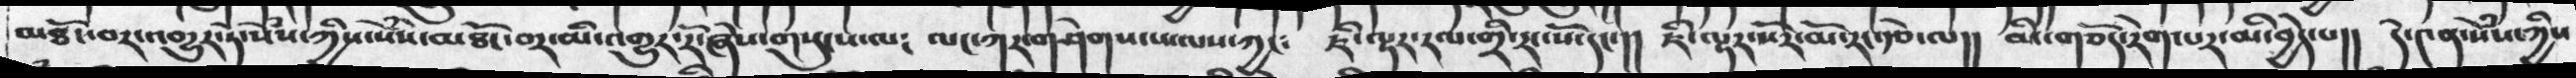མཐོང་བར་འགྱུར་ཏེ་སེཾས་ཀྱིས་སེཾས་མཐོང་བར་མི་འགྱུར་རོ་ཞེས་གསུངས་ལ༴ ལང་ཀར་གཤེགས་པ་ལས་ཀྱང༴ ཇི་ལྟར་རལ་གྲི་རང་སོ་དང་།། ཇི་ལྟར་སོར་མོ་རང་རྩེ་ལ།། མི་གཅོད་རེག་པར་མི་བྱེད་པ།། དེ་༤ན་སེཾས་ཀྱིས
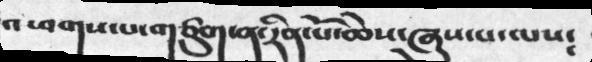འཕགས་པ་གཙུག་ན་རིན་པོ་ཆེས་ཞུས་པ་ལས༴
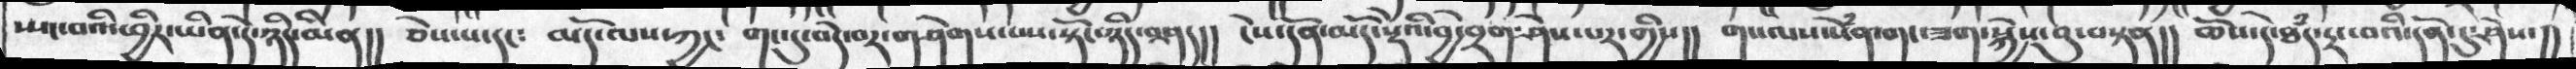སྤང་བའི་ཕྱིར་ཡིན་དེ་ཉིད་མིན།། ཅེས་པ་དང༴ མདོ་ལས་ཀྱང༴ གང་དུ་བདེ་བར་གཤེགས་པས་སྟོང་ཉིད་བཤད།། ངེས་དོན་མདོ་སྡེའི་བྱེ་བྲག་ཤེས་པར་གྱིས།། གང་ལས་སེཾན་གང་ཟག་སྐྱེས་བུ་བསྟན།། ཆོས་དེ་ཐཾད་དྲང་བའི་དོན་དུ་ཤེས་།།
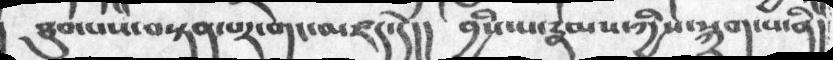ཐུབ་པས་བསྟན་པར་གང་མཛད་དེ།།  བྱིས་པ་རྣམས་ཀྱིས་སྐྲག་པ་ནི།
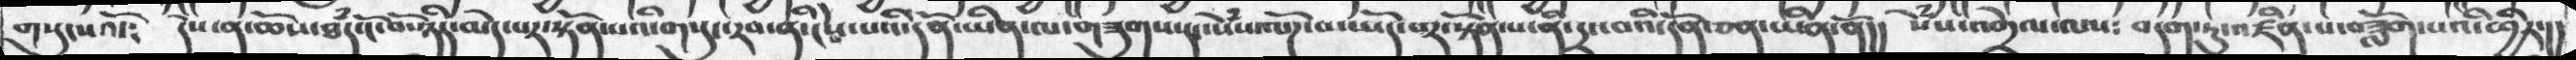གསུངསའོང༴  དེས་ན་ཆོས་ཐཾད་ངོ་བོ་ཉིད་མེད་པར་སྟོན་པའི་གསུང་རབ་ནི་ངེས་པའི་དོན་ཡིན་ལ་གཟུགས་དང་སེཾས་ལོཌ་པ་ཡོད་པར་སྟོན་པ་ནི་དྲང་བའི་དོན་ཅན་ཡིན་ནོ།།  སེཾས་འགྲེལ་ལས༴  བདག་ཏུ་འཛིན་བཟློག་པའི་ཕྱིར་།།
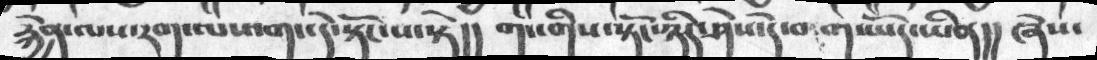རྐྱེན་ལས་རག་ལས་གང་དེ་སྟོང་པ་སྟེ།།  གང་གིས་སྟོང་ཉིད་ཤེས་དེ་བག་ཡོད་ཡིན།། ཞེས་
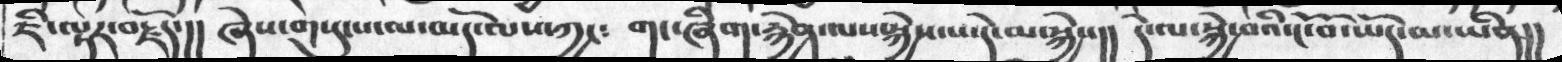ཇི་ལྟར་བརྗོད་།། ཞེས་གསུངས་ལ་མདོ་ལས་ཀྱང༴ གང་ཞིག་རྐྱེན་ལས་སྐྱེས་པ་དེ་མ་སྐྱེས།། དེ་ལ་སྐྱེ་བའི་ངོ་བོ་ཡོད་མ་ཡིན།།
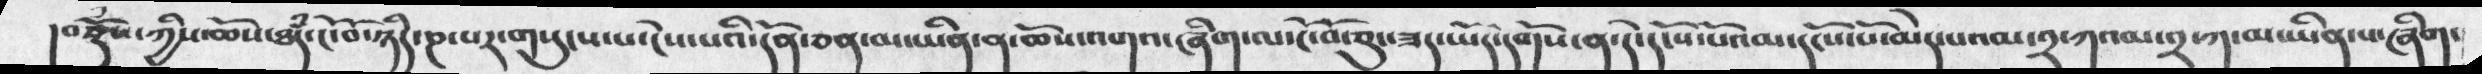།བཅྡོཾས་ཀྱིས་ཆོས་ཐཾད་ངོ་བོ་ཉིད་ཎ་པར་གསུངས་པ་ངེས་པའི་དོན་ཅན་མ་ཡིན་ན་ཆོས་འགའ་ཞིག་ལ་ངོ་བོ་ཅུང་ཟད་ཡོད་དགོས་ན་དེ་དངོས་པོའམ་དངོས་མེད་པའམ་༢་ཀ་མ་ཡིན་པ་ཞིག་
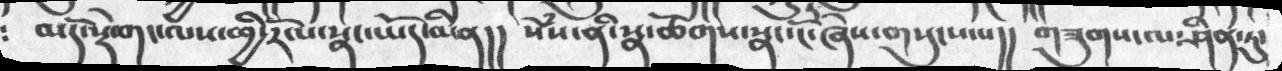མདོ་སྡེ་གང་ལས་ཕྱི་རོལ་སྣང་ཡོད་མིན།། སེཾས་ནི་སྣ་ཚོགས་སྣང་ངོ་ཞེས་གསུངས་པ།།  གཟུགས་ལ་ཤིན་ཏུ་
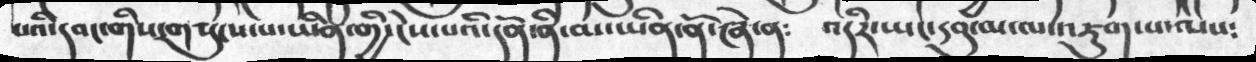པའི་དབང་གིས་གསུངས་པ་ཡིན་གྱི་ངེས་པའི་དོན་ནི་མ་ཡིན་ནོ་ཞེ་ན༴ འདིར་ཡང་དབུ་མ་ལ་འཇུག་པ་ལས༴
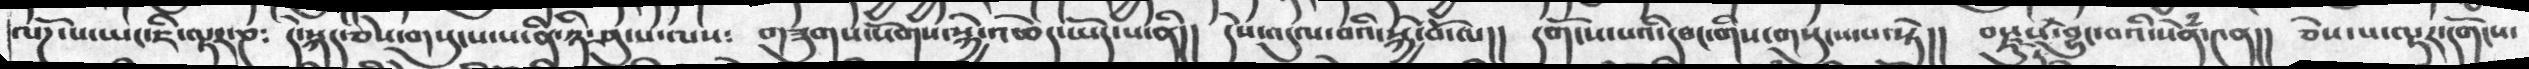ལོཌ་པ་ཡང་ཇི་ལྟར་ཎ༴  དེ་སྐད་ཅེས་གསུངས་པ་ནི་ཉི་ཤུ་པ་ལས༴  གཟུགས་སོགས་སྐྱེ་འཆེད་ཡོད་པ་ནི།།  དེས་འདུལ་བའི་སྐྱེ་བོ་ལ།།  དགོངས་པའི་དབང་གིས་གསུངས་པ་སྟེ།།  བསྫུས་བྱུང་བའི་སེཾན་༤ན།།  ཅེས་པ་ལྟར་དགོངས་
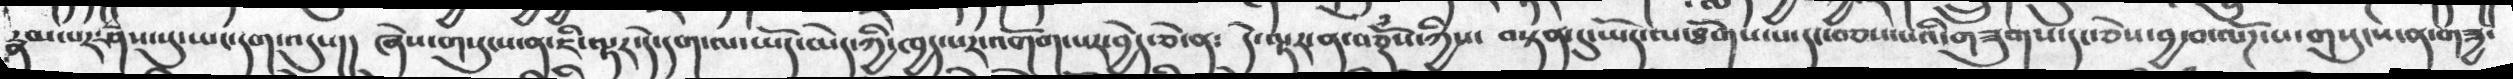རྣམ་པར་ཤེས་སུ་ཡང་དག་འདུས།།   ཞེས་གསུངས་ན་ཇི་ལྟར་དེ་དག་ལ་ཡོད་མེད་ཀྱི་ཁྱད་པར་འགོག་པར་བྱེད་ཅེ་ན༴  དེ་ལྟར་ན་བཅྡོས་ཀྱིས།  བསྟན་དུ་ཡོད་ལ་ཐོགས་པ་དང་བཅས་པའི་གཟུགས་དང་ཅེས་བྱ་བ་ལོཌ་པ་གསུངས་ན་གཟྱ་
